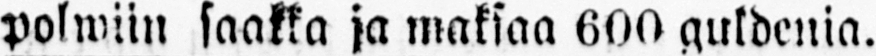polwiiu saakka ja maksaa 600 guldenia.
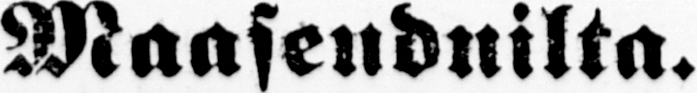Maaseuduilta.
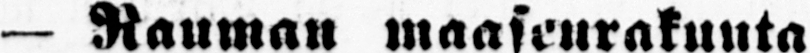— Rauman maaseurakuuta
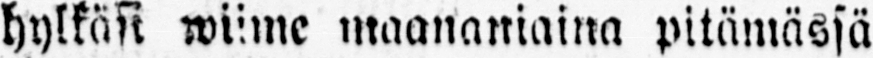hylkäsi wiime maananiaina pitämässä
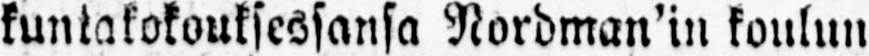kuntakokouksessansa Nordman'in koulun
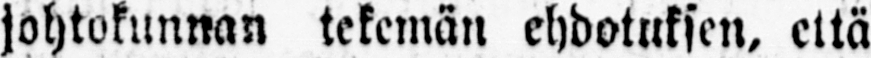johtokunnan tekemän ehdotuksen, että
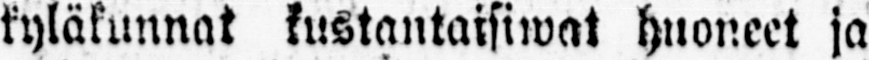kyläkunnat kustantaisiwat huoneet ja
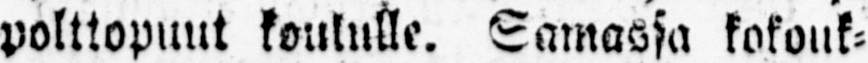polttopuut koululle. Samassa kokouk-
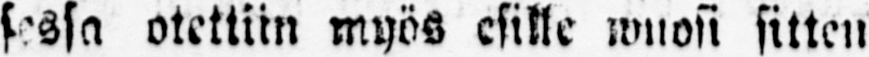sessa otettiin myös esille wuosi sitten
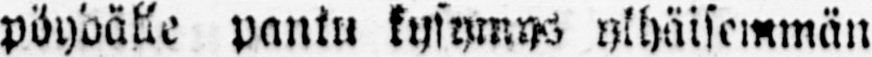pöydälle pantu kysymys ylhäisemmän
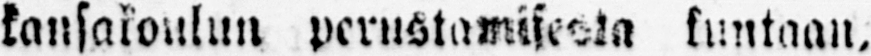kansakoulun perustamisesta kuntaan,
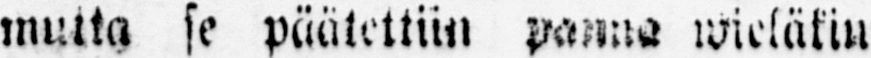muutta se päätettiin panna wieläkin
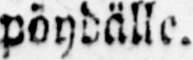pöydälle.
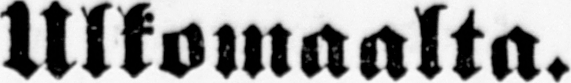Ulkomaalta.
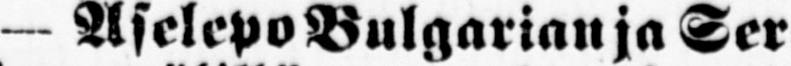— Aselepo Bulgarian ja Ser-
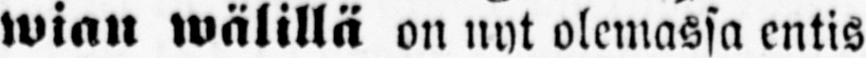wian wälilla on nyt olemassa entis
